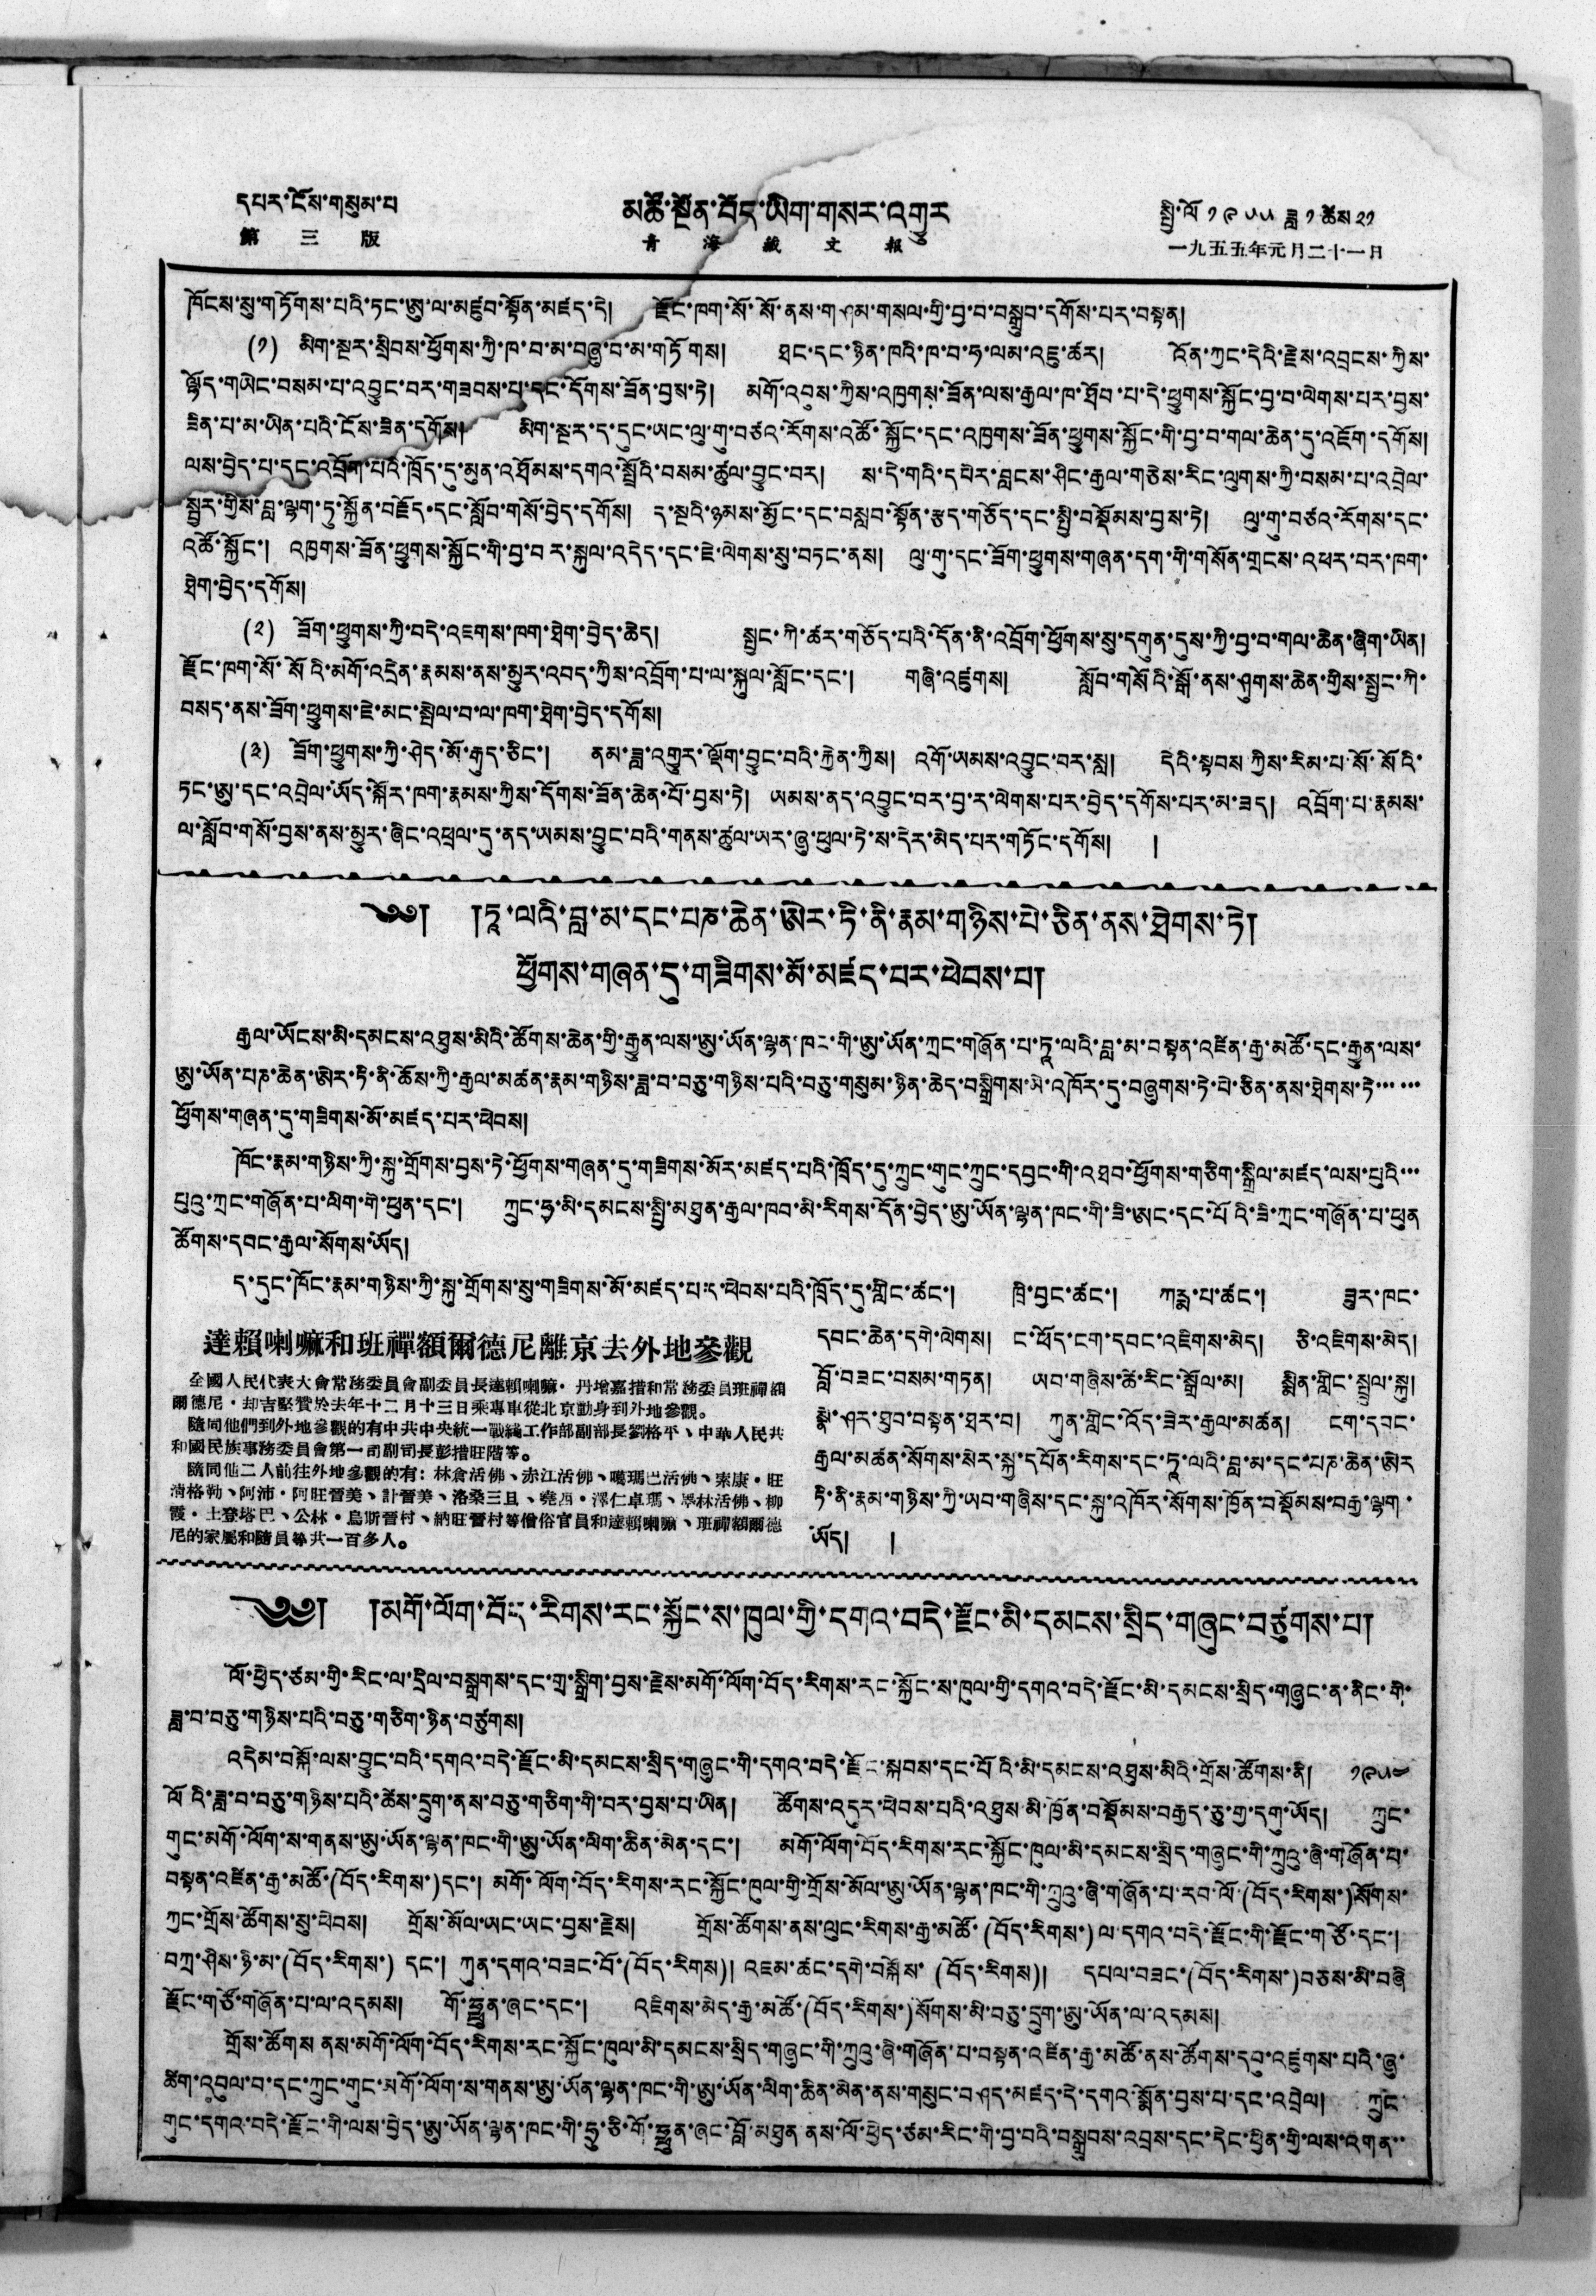དཔར་ངོས་གསུམ་པ།   མཚོ་སྔོན་བོད་ཡིག་གསར་འགྱུར   སྤྱི་ལོ ༡༩༥༥ ཟླ ༡ ཚེས ༢༡
第 三 版 青 海 藏 文 報 一九五五年元月二十一日
ཁོངས་སུ་གཏོགས་པའི་ཏང་ཨུ་ལ་མཛུབ་སྟོན་མཛད་དེ། རྫོང་ཁག་སོ་སོ་ནས་གཤམ་གསལ་གྱི་བྱ་བ་བསྒྲུབ་དགོས་པར་བསྟན།
(༡) མིག་སྔར་སྲིབས་ཕྱོགས་ཀྱི་ཁ་བ་མ་བཞུ་བ་མ་གཏོགས། ཐང་དང་ཉིན་ཁའི་ཁ་བ་ཧ་ལམ་འཇུ་ཚར། འོན་ཀྱང་དེའི་རྗེས་འབྲངས་ཀྱིས་
ལྷོད་གཡེང་བསམ་པ་འབྱུང་བར་གཟབས་པ་དང་དོགས་ཟོན་བྱས་ཏེ། མགོ་འབུས་ཀྱིས་འཁྱགས་ཟོན་ལས་རྒྱལ་ཁ་ཐོབ་པ་དེ་ཕྱུགས་སྐྱོང་བྱ་བ་ལེགས་པར་བྱས་
ཟིན་པ་མ་ཡིན་པའི་ངོས་ཟིན་དགོས། མིག་སྔར་ད་དུང་ཡང་ལུ་གུ་བཙའ་རོགས་འཚོ་སྐྱོང་དང་འཁྱགས་ཟོན་ཕྱུགས་སྐྱོང་གི་བྱ་བ་གལ་ཆེན་དུ་འཇོག་དགོས།
ལས་བྱེད་པ་དང་འབྲོག་པའི་ཁྲོད་དུ་མུན་འཐོམས་དགའ་སྤྲོའི་བསམ་ཚུལ་བྱུང་བར། ས་དེ་གའི་དཔེར་བླངས་ཤིང་རྒྱལ་གཅེས་རིང་ལུགས་ཀྱི་བསམ་པ་འབྲེལ་
སྦྱར་གྱིས་བླ་ལྷག་ཏུ་སྐྱོན་བརྗོད་དང་སློབ་གསོ་བྱེད་དགོས། ད་སྔའི་ཉམས་མྱོང་དང་བསླབ་སྟོན་རྩད་གཅོད་དང་སྤྱི་བསྡོམས་བྱས་ཏེ། ལུ་གུ་བཙའ་རོགས་དང་
འཚོ་སྐྱོང་། འཁྱགས་ཟོན་ཕྱུགས་སྐྱོང་གི་བྱ་བར་སྐུལ་འདེད་དང་ཇེ་ལེགས་སུ་བཏང་ནས། ལུ་གུ་དང་ཟོག་ཕྱུགས་གཞན་དག་གི་གསོན་གྲངས་འཕར་བར་ཁག་
ཐེག་བྱེད་དགོས།
(༢) ཟོག་ཕྱུགས་ཀྱི་བདེ་འཇགས་ཁག་ཐེག་བྱེད་ཆེད། སྤྱང་ཀི་ཚར་གཅོད་པའི་དོན་ནི་འབྲོག་ཕྱོགས་སུ་དགུན་དུས་ཀྱི་བྱ་བ་གལ་ཆེན་ཞིག་ཡིན།
ཁག་སོ་སོའི་མགོ་འདྲེན་རྣམས་ནས་མྱུར་འབད་ཀྱིས་འབྲོག་པ་ལ་སྐུལ་སློང་དང་། གཞི་འཛུགས། སློབ་གསོའི་སྒོ་ནས་ཤུགས་ཆེན་གྱིས་སྤྱང་ཀི་
བསད་ནས་ཟོག་ཕྱུགས་ཇེ་མང་སྤེལ་བ་ལ་ཁག་ཐེག་བྱེད་དགོས།
(༣) ཟོག་ཕྱུགས་ཀྱི་ཤེད་མོ་རྒུད་ཅིང་། ནམ་ཟླ་འགྱུར་ལྡོག་བྱུང་བའི་རྐྱེན་ཀྱིས། འགོ་ཡམས་འབྱུང་བར་སླ། དེའི་སྟབས ཀྱིས་རིམ་པ་སོ་སོའི་
ཏང་ཨུ་དང་འབྲེལ་ཡོད་སྐོར་ཁག་རྣམས་ཀྱིས་དོགས་ཟོན་ཆེན་པོ་བྱས་ཏེ། ཡམས་ནད་འབྱུང་བར་བྱ་ར་ལེགས་པར་བྱེད་དགོས་པར་མ་ཟད། འབྲོག་པ་རྣམས་
ལ་སློབ་གསོ་བྱས་ནས་མྱུར་ཞིང་འཕྲལ་དུ་ནད་ཡམས་བྱུང་བའི་གནས་ཚུལ་ཡར་ཞུ་ཕུལ་ཏེ་ས་དེར་མེད་པར་གཏོང་དགོས། །
༄༅། །ཏཱ་ལའི་བླ་མ་དང་པཎ་ཆེན་ཨེར་ཏི་ནི་རྣམ་གཉིས་པེ་ཅིན་ནས་ཐེགས་ཏེ།
ཕྱོགས་གཞན་དུ་གཟིགས་མོ་མཛད་པར་ཕེབས་པ།
རྒྱལ་ཡོངས་མི་དམངས་འཐུས་མིའི་ཚོགས་ཆེན་གྱི་རྒྱུན་ལས་ཨུ་ཡོན་ལྷན་ཁང་གི་ཨུ་ཡོན་ཀྲང་གཞོན་པ་ཏཱ་ལའི་བླ་མ་བསྟན་འཛིན་རྒྱ་མཚོ་དང་རྒྱུན་ལས་
ཨུ་ཡོན་པཎ་ཆེན་ཨེར་ཏི་ནི་ཆོས་ཀྱི་རྒྱལ་མཚན་རྣམ་གཉིས་ཟླ་བ་བཅུ་གཉིས་པའི་བཅུ་གསུམ་ཉིན་ཆེད་བསྒྲིགས་མེ་འཁོར་དུ་བཞུགས་ཏེ་པེ་ཅིན་ནས་ཐེགས་ཏེ་་་་་་
ཕྱོགས་གཞན་དུ་གཟིགས་མོ་མཛད་པར་ཕེབས།
ཁོང་རྣམ་གཉིས་ཀྱི་སྐུ་གྲོགས་བྱས་ཏེ་ཕྱོགས་གཞན་དུ་གཟིགས་མོར་མཛད་པའི་ཁྲོད་དུ་ཀྲུང་གུང་ཀྲུང་དབྱང་གི་འཐབ་ཕྱོགས་གཅིག་སྒྲིལ་མཛད་ལས་པུའི་་་
པུའུ་ཀྲང་གཞོན་པ་ལིག་གེ་ཕུན་དང་། ཀྲུང་ཧྭ་མི་དམངས་སྤྱི་མཐུན་རྒྱལ་ཁབ་མི་རིགས་དོན་བྱེད་ཨུ་ཡོན་ལྷན་ཁང་གི་ཟི་ཨང་དང་པོའི་ཟི་ཀྲང་གཞོན་པ་ཕུན
ཚོགས་དབང་རྒྱལ་སོགས་ཡོད།
དུང་ཁོང་རྣམ་གཉིས་ཀྱི་སྐུ་གྲོགས་སུ་གཟིགས་མོ་མཛད་པ་དུ་ཕེབས་པའི་ཁྲོད་དུ་གླིང་ཚང་། ཁྲི་བྱང་ཚང་། ཀརྨ་པ་ཚང་། ཟུར་ཁང་
དབང་ཆེན་དགེ་ལེགས། ང་ཕོད་ངག་དབང་འཇིགས་མེད། ཅི་འཇིགས་མེད།
བློ་བཟང་བསམ་གཏན། ཡབ་གཞིས་ཚེ་རིང་སྒྲོལ་མ། སྨིན་གླིང་སྤྲུལ་སྐུ།
སྣེ་ཤར་ཐུབ་བསྟན་ཐར་བ། ཀུན་གླིང་འོད་ཟེར་རྒྱལ་མཚན། ངག་དབང་
རྒྱལ་མཚན་སོགས་སེར་སྐྱ་དཔོན་རིགས་དང་ཏཱ་ལའི་བླ་མ་དང་པཎ་ཆེན་ཨེར
ཏི་ནི་རྣམ་གཉིས་ཀྱི་ཡབ་གཞིས་དང་སྐུ་འཁོར་སོགས་ཁྱོན་བསྡོམས་བརྒྱ་ལྷག་
ཡོད། །
達賴喇嘛和班禪額爾德尼離京去外地參觀
全國人民代表大會常務委員會副委員長達賴喇嘛・丹增嘉措和常務委員班禪額
爾德尼・却吉堅贊於去年十二月十三日乘專車從北京動身到外地參觀。
隨同他們到外地參觀的有中共中央統一戰綫工作部副部長劉格平、中華人民共
和國民族事務委員會第一司副司長彭措旺階等。
隨同他二人前往外地參觀的有：林倉活佛、赤江活佛、噶瑪巴活佛、索康・旺
清格勒、阿沛・阿旺晉美、計晉美、洛桑三旦、堯西・澤仁卓瑪、旻林活佛、柳
霞・土登塔巴、公林・烏斯晉村、納旺晉村等僧俗官員和達賴喇嘛、班禪額爾德
尼的家屬和隨員等共一百多人。
༄༅། །མགོ་ལོག་བོད་རིགས་རང་སྐྱོང་ས་ཁུལ་གྱི་དགའ་བདེ་རྫོང་མི་དམངས་སྲིད་གཞུང་བཙུགས་པ།
ལོ་ཕྱེད་ཙམ་གྱི་རིང་ལ་དྲིལ་བསྒྲགས་དང་གྲ་སྒྲིག་བྱས་རྗེས་མགོ་ལོག་བོད་རིགས་རང་སྐྱོང་ས་ཁུལ་གྱི་དགའ་བདེ་རྫོང་མི་དམངས་སྲིད་གཞུང་ན་ནིང་གི་
ཟླ་བ་བཅུ་གཉིས་པའི་བཅུ་གཅིག་ཉིན་བཙུགས།
འདེམ་བསྐོ་ལས་བྱུང་བའི་དགའ་བདེ་རྫོང་མི་དམངས་སྲིད་གཞུང་གི་དགའ་བདེ་རྫོང་སྐབས་དང་པོའི་མི་དམངས་འཐུས་མིའི་གྲོས་ཚོགས་ནི། ༡༩༥༤
ལོའི་ཟླ་བ་བཅུ་གཉིས་པའི་ཚེས་དྲུག་ནས་བཅུ་གཅིག་གི་བར་བྱས་པ་ཡིན། ཚོགས་འདུར་ཕེབས་པའི་འཐུས་མི་ཁྱོན་བསྡོམས་བརྒྱད་ཅུ་གྱ་དགུ་ཡོད། ཀྲུང་
གུང་མགོ་ལོག་ས་གནས་ཨུ་ཡོན་ལྷན་ཁང་གི་ཨུ་ཡོན་ལིག་ཆིན་མེན་དང་། མགོ་ལོག་བོད་རིགས་རང་སྐྱོང་ཁུལ་མི་དམངས་སྲིད་གཞུང་གི་ཀྲུའུ་ཞི་གཞོན་པ་
སྟན་འཛིན་རྒྱ་མཚོ་(བོད་རིགས་)དང་། མགོ་ལོག་བོད་རིགས་རང་སྐྱོང་ཁུལ་གྱི་གྲོས་མོལ་ཨུ་ཡོན་ལྷན་ཁང་གི་ཀྲུའུ་ཞི་གཞོན་པ་རབ་ལོ་(བོད་རིགས་)སོགས་་
ཀྱང་གྲོས་ཚོགས་སུ་ཕེབས། གྲོས་མོལ་ཡང་ཡང་བྱས་རྗེས། གྲོས་ཚོགས་ནས་ལུང་རིགས་རྒྱ་མཚོ་(བོད་རིགས་)ལ་དགའ་བདེ་རྫོང་གི་རྫོང་གཙོ་དང་།
བཀྲ་ཤིས་ཉི་མ་(བོད་རིགས་)དང་། ཀུན་དགའ་བཟང་བོ་(བོད་རིགས)།  འཇམ་ཚང་དགེ་བསྐོས་(བོད་རིགས)། དཔལ་བཟང་(བོད་རིགས་)བཅས་མི་བཞི
རྫོང་གཙོ་གཞོན་པ་ལ་འདམས། གོ་ཧྥུན་ཞང་དང་། འཇིགས་མེད་རྒྱ་མཚོ་(བོད་རིགས་)སོགས་མི་བཅུ་དྲུག་ཨུ་ཡོན་ལ་འདམས།
གྲོས་ཚོགས ནས་མགོ་ལོག་བོད་རིགས་རང་སྐྱོང་ཁུལ་མི་དམངས་སྲིད་གཞུང་གི་ཀྲུའུ་ཞི་གཞོན་པ་བསྟན་འཛིན་རྒྱ་མཚོ་ནས་ཚོགས་དབ་འཛུགས་པའི་ཞུ་
ཚིག་འབུལ་བ་དང་ཀྲུང་གུང་མགོ་ལོག་ས་གནས་ཨུ་ཡོན་ལྷན་ཁང་གི་ཨུ་ཡོན་ལིག་ཆིན་མེན་ནས་གསུང་བཤད་མཛད་དེ་དགའ་སྨོན་བྱས་པ་དང་འབྲེལ། ཀྲུང་
གུང་དགའ་བདེ་རྫོང་གི་ལས་བྱེད་ཨུ་ཡོན་ལྷན་ཁང་གི་ཧྲུ་ཅི་གོ་ཧྥུན་ཞང་བློ་མཐུན་ནས་ལོ་ཕྱེད་ཙམ་རིང་གི་བྱ་བའི་བསྒྲུབས་འབྲས་དང་དེང་ཕྱིན་གྱི་ལས་འགན་་
